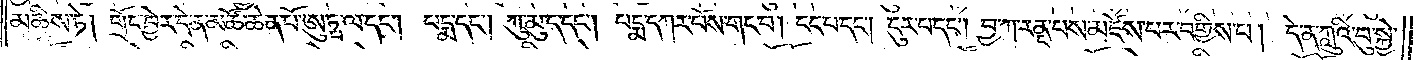མཆིས་ཏེ། གྲོང་ཁྱེར་དེ་ན་མཚོ་ཆེན་པོ་ཨུཏྤ་ལ་དང༌། པདྨ་དང༌། ཀུ་མུ་ད་དང༌། པདྨ་དཀར་པོས་གང་བ། ངང་པ་དང༌། ངུར་བ་དང༌། བྱ་ཀ་རནྡ་པས་མཛེས་པར་བགྱིས་པ། དེ་ན་ཀླུའི་བུ་སྐྱེ་
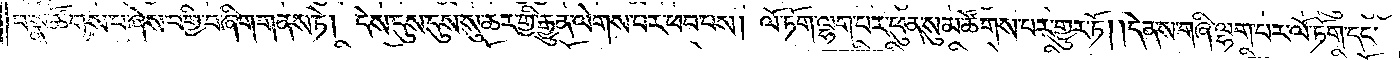བ་སྣ་ཚོགས་པ་ཞེས་བགྱི་བ་ཞིག་གནས་ཏེ། དེས་དུས་དུས་སུ་ཆར་གྱི་རྒྱུན་ལེགས་པར་ཕབ་པས། ལོ་ཏོག་ལྷག་པར་ཕུན་སུམ་ཚོགས་པར་གྱུར་ཏོ། །དེ་ནས་གཞི་ལྷག་པར་ལོ་ཏོག་དང༌།
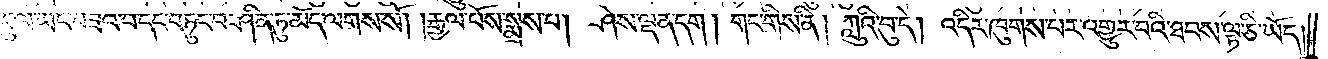ལྡན་པས་ཡུལ་ཡང་བཟའ་བ་དང་བཏུང་བ་ཤིན་ཏུ་མོད་ལགས་སོ། །རྒྱལ་པོས་སྨྲས་པ། ཤེས་ལྡན་དག །གང་གིས་ནི། ཀླུའི་བུ་དེ། འདིར་ཁུགས་པར་འགྱུར་བའི་ཐབས་ལྟ་ཅི་ཡོད།
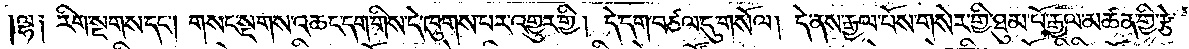ལྷ༑ རིག་སྔགས་དང༌། གསང་སྔགས་འཆང་དག་གིས་དེ་ཁུགས་པར་འགྱུར་གྱི། དེ་དག་བཙལ་དུ་གསོལ། དེ་ནས་རྒྱལ་པོས་གསེར་གྱི་ཐུམ་པོ་རྒྱལ་མཚན་གྱི་རྩེ་
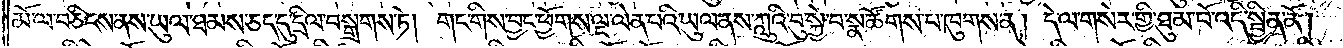མོ་ལ་བཅིངས་ནས་ཡུལ་ཐམས་ཅད་དུ་དྲིལ་བསྒྲགས་ཏེ། གང་གིས་བྱང་ཕྱོགས་ལྔ་ལེན་པའི་ཡུལ་ནས་ཀླུའི་བུ་སྐྱེ་བ་སྣ་ཚོགས་པ་ཁུགས་ན། དེ་ལ་གསེར་གྱི་ཐུམ་པོ་འདི་སྦྱིན་ནོ། །
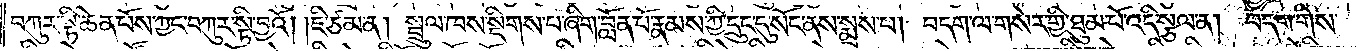བཀུར་སྟི་ཆེན་པོས་ཀྱང་བཀུར་སྟི་བྱའོ། །ཇི་ཙམ་ན། སྤྲུལ་ཁས་སྡིགས་པ་ཞིག་བློན་པོ་རྣམས་ཀྱི་དྲུང་དུ་སོང་ནས་སྨྲས་པ། བདག་ལ་གསེར་གྱི་ཐུམ་པོ་འདི་སྩལ་ན། བདག་གིས་
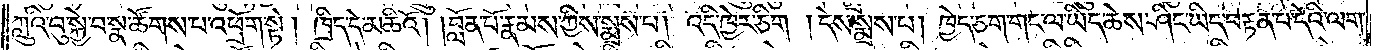ཀླུའི་བུ་སྐྱེ་བ་སྣ་ཚོགས་པ་འཕྲོག་སྟེ། ཁྲིད་དེ་མཆིའོ། །བློན་པོ་རྣམས་ཀྱིས་སྨྲས་པ། འདི་ཁྱེར་ཅིག །དེས་སྨྲས་པ། ཁྱེད་ཅག་གང་ལ་ཡིད་ཆེས་ཤིང་ཡིད་བརྟན་པ་དེའི་ལག་
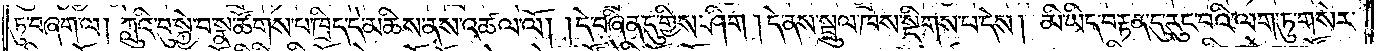ཏུ་བཞག་ལ། ཀླུའི་བུ་སྐྱེ་བ་སྣ་ཚོགས་པ་ཁྲིད་དེ་མཆིས་ནས་འཚལ་ལོ། །དེ་བཞིན་དུ་གྱིས་ཤིག །དེ་ནས་སྤྲུལ་ཁས་སྡིགས་པ་དེས། མི་ཡིད་བརྟན་དུ་རུང་བའི་ལག་ཏུ་གསེར་
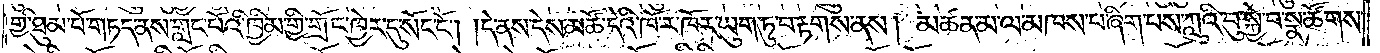གྱི་ཐུམ་པོ་གཏད་ནས་གླང་པོའི་ཁྱིམ་གྱི་གྲོང་ཁྱེར་དུ་སོང་ངོ༌། །དེ་ནས་དེས་མཚོ་དེའི་ཁོ་ར་ཁོར་ཡུག་ཏུ་བརྟགས་ནས། མཚན་མ་ལ་མཁས་པ་ཞིག་པས་ཀླུའི་བུ་སྐྱེ་བ་སྣ་ཚོགས་
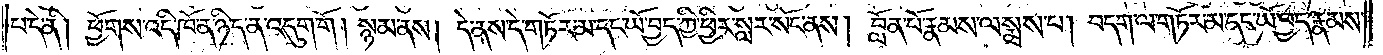པ་དེ་ནི། ཕྱོགས་འདི་ཁོ་ན་ཉིད་ན་འདུག་གོ །སྙམ་ནས། དེ་ནས་དེ་གཏོར་མ་དང་ཡོ་བྱད་ཀྱི་ཕྱིར་སླར་སོང་ནས། བློན་པོ་རྣམས་ལ་སྨྲས་པ། བདག་ལ་གཏོར་མ་དང་ཡོ་བྱད་རྣམས་
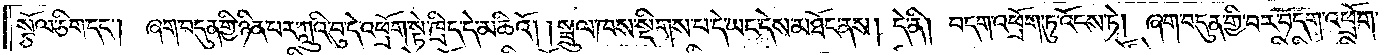སྩོལ་ཅིག་དང༌། ཞག་བདུན་གྱི་ཉིན་པར་ཀླུའི་བུ་དེ་འཕྲོག་སྟེ་ཁྲིད་དེ་མཆིའོ། །སྦྲུལ་ཁས་སྡིགས་པ་དེ་ཡང་དེས་མཐོང་ནས། དེ་ནི། བདག་འཕྲོག་ཏུ་འོངས་ཏེ། ཞག་བདུན་གྱི་བར་བདག་འཕྲོག་
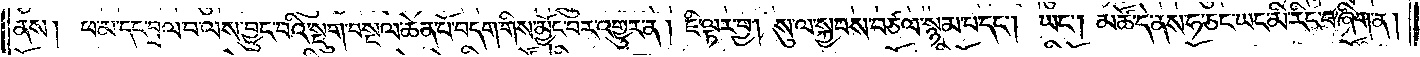ནས། ཕ་མ་དང་བྲལ་བ་ལས་བྱུང་བའི་སྡུག་བསྔལ་ཆེན་པོ་བདག་གིས་མྱོང་བར་འགྱུར་ན། ཇི་ལྟར་བྱ། སུ་ལ་སྐྱབས་བཙལ་སྙམ་པ་དང༌། ཡང༌། མཚོ་དེ་ནས་ཧ་ཅང་ཡང་མི་རིང་བ་ཞིག་ན།
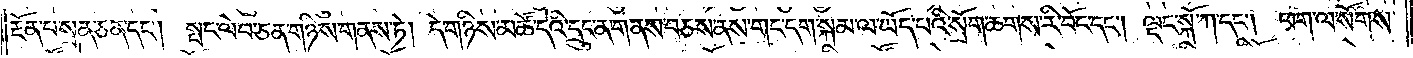རྔོན་པ་སྲན་ཅན་དང༌། སྤང་ལེབ་ཅན་གཉིས་གནས་ཏེ། དེ་གཉིས་མཚོ་དེའི་དྲུང་ན་གནས་བཅས་ནས་གང་དག་སྐམ་ལ་ཡོད་པའི་སྲོག་ཆགས་རི་བོང་དང༌། ལྡང་སྐོ་ཀ་དང༌། ཕག་ལ་སོགས་
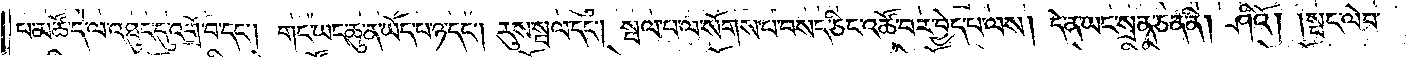པ་མཚོ་དེ་ལ་འཐུང་དུ་འགྲོ་བ་དང༌། གང་ཡང་ཆུ་ན་ཡོད་པ་ཉ་དང༌། རུས་སྦལ་དང༌། སྦལ་པ་ལ་སོགས་པ་བསད་ཅིང་འཚོ་བར་བྱེད་པ་ལས། དེ་ན་ཡང་སྲན་ཅན་ནི། ཤིའོ། །སྤང་ལེབ་
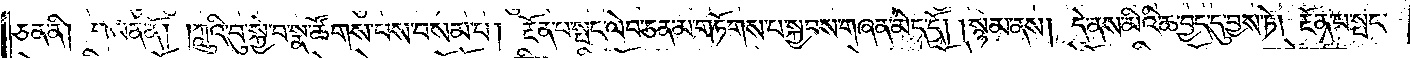ཅན་ནི། གསན་ནོ། །ཀླུའི་བུ་སྐྱེ་བ་སྣ་ཚོགས་པས་བསམ་པ། རྔོན་པ་སྤང་ལེབ་ཅན་མ་གཏོགས་པ་སྐྱབས་གཞན་མེད་དོ། །སྙམ་ནས། དེ་ནས་མིའི་ཆ་བྱད་དུ་བྱས་ཏེ། རྔོན་པ་སྤང་
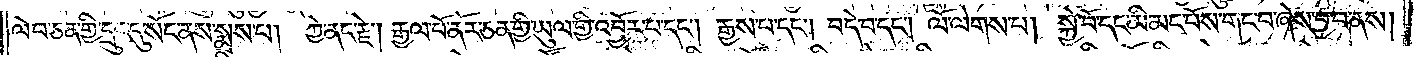ལེབ་ཅན་གྱི་དྲུང་དུ་སོང་ནས་སྨྲས་པ། ཀྱེ་ནང་རྗེ། རྒྱལ་པོ་ནོར་ཅན་གྱི་ཡུལ་གྱི་འབྱོར་པ་དང༌། རྒྱས་པ་དང༌། བདེ་བ་དང༌། ལོ་ལེགས་པ། སྐྱེ་བོ་དང་མི་མང་པོས་གང་བ་ཞེས་བྱ་བ་ནས།
